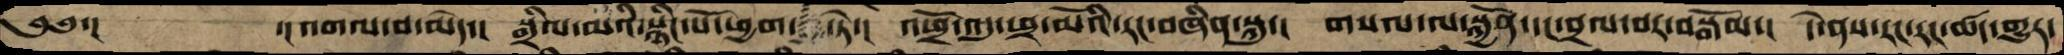༄༅་།  ་།འགལ་བ་མེད་། སྒྲིལ་མའི་སྙིང་པོ་ཕྱག་རྒྱ་ཏེ་། འཕྲོ་འདུ་ཕྲ་མོའི་རང་བཞིན་སྐུ་། གསལ་ལ་སྐྱོན་དང་བྲལ་བར་བསྒོམ་། དེ་ནས་རང་རང་ཚད་གྱུར་
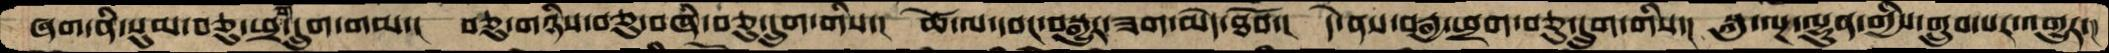ཞག་ནི་སུམ་བཅུ་ཕྲག་དྲུག་གམ་། བཅུ་གཉིས་བཅུ་བཞི་བཅུ་དྲུག་གིས་། ཚེ་ལ་དབང་བསྒྱུར་ཟག་མེད་ཐོབ་། དེ་ནས་བརྒྱ་ཕྲག་བཅུ་དྲུག་གིས་། སྐུ་ལྔ་ལྷུན་གྱིས་གྲུབ་པར་འགྱུར་།
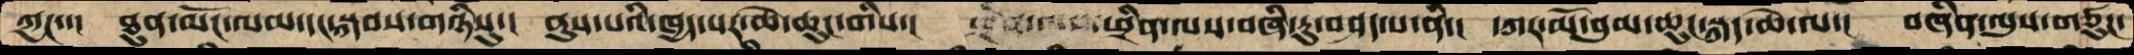ཀྱང་་། ཐུན་མོང་ལམ་དང་སྐབས་གཉིསུ་། ནུས་པའི་ཁྱད་པར་ཆེ་ཆུང་གིས་། ཕྲིན་ལས་བཞི་རུ་བཤད་པ་ནི་། དཀར་མོ་བུམ་ཆུང་སྐད་ཆེ་ལ་། བཞིན་ལུས་གཙུང་
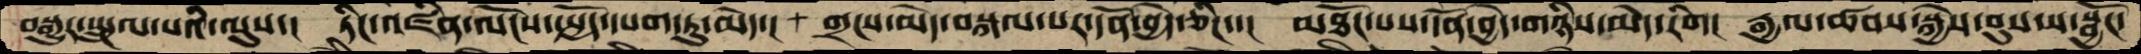བསྒྱུར་སྤྲུལ་པའི་ལུས་། ཏིང་འཛིན་ལོངས་སྤྱོད་དཔག་ཏུ་མེད་། གྲངས་མེད་བསྐལ་པར་དོན་བྱེད་ཅིང་་། མཐོང་པས་དོན་བྱེད་གཉིས་མེད་རིག། རྒྱལ་ཚབས་སྐྱེས་བུས་ས་སྦྱོང་
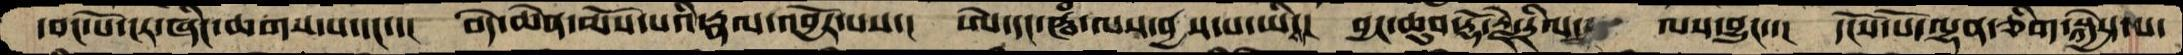དབང་པོ་དར་ཞིང་ཆགས་པ་དང་་། བདེ་ཆེན་མོས་པའི་རྣལ་འབྱོར་པས་། ཨེ་དང་ཝཾ་ལས་ནྱས་པ་ཡིས་། བྱང་ཆུབ་རྡོ་རྗེ་དྲིལ་ལས་བྱུང་་། དངོས་པོ་ལྷན་ཅིག་སྐྱེས་པ་
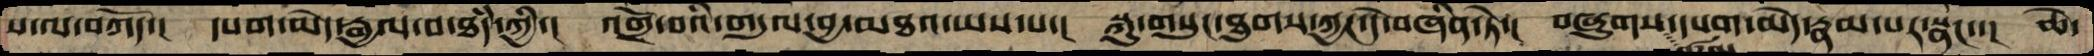ས་ལ་བཀོད་། དཔག་མེད་རྒྱལ་བ་ཐཾད་ཀྱི་། འགྲོ་བའི་གདུལ་བྱ་མཐའ་ཡས་པ་། སྐུ་གསུང་ཐུགས་ཀྱང་དེ་བཞིན་ཏེ་། བཞུགས་ཚུལ་དཔག་མེད་རྣམ་པར་སྣང་་། ཆེ་
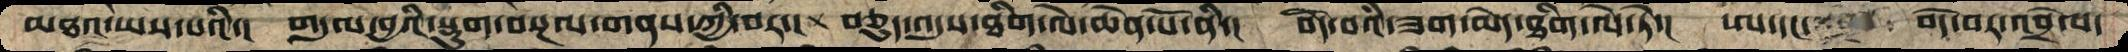མཐའ་ཡས་པའི་། གདུལ་བྱའི་སྡུག་བསྔལ་གནས་ཀྱི་བར་། བཅུད་འདུས་ཐིག་ལེ་ཆེན་པོ་ནི་། བདེ་བའི་ཟག་མེད་ཐིག་ལེ་ཏེ་། ཨ་དང་   བདེ་བར་འབྲེལ་
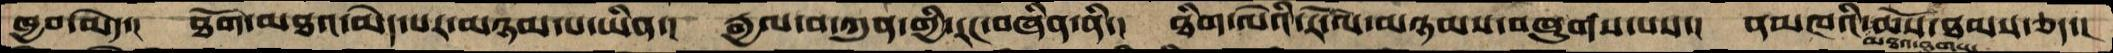ཁྱབ་མེད་། ཐོག་མཐའ་མེད་པར་མཉམ་པ་ཡིན་། རྒྱལ་བ་ཀུན་གྱི་རང་བཞིན་ནི་། ཐིག་ལེའི་རོ་ལ་མཉམས་བཞུགས་པས་། ནམཁའི་མཐའ་ཐུགས་ཆོས་ཐམས་ཅད་།
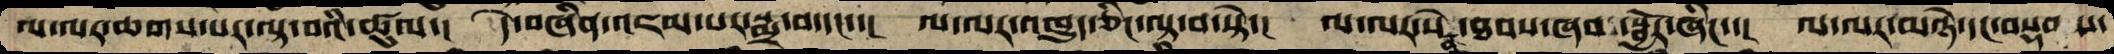ལ་ལར་ཆགས་པར་ལྟ་བའི་ཚུལ་། དེ་བཞིན་འཇམ་པར་སྨྲ་བ་དང་་། ལ་ལར་འཁྱུད་ཅིང་ལྟ་བ་སྟེ་། ལ་ལར་སེན་ཐབས་ཞབ་སྦྱོར་ཞིང་་། ལ་ལར་མཉེ་དང་བསྡམས་
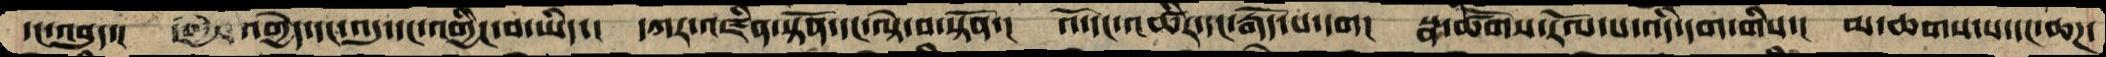དང་འབུད་། འགྱེད་དང་འདུ་དང་འགྱིང་བ་ཡིད་། དཀར་འཛིན་སྟོན་དང་ལྟེ་བ་སྟོན་། འོ་དང་འཚིར་དང་རྒོད་པ་དག། སྣ་ཚོགས་རོལ་པ་འདི་དག་གིས་། མ་ཆགས་པ་དང་ཆཌ་
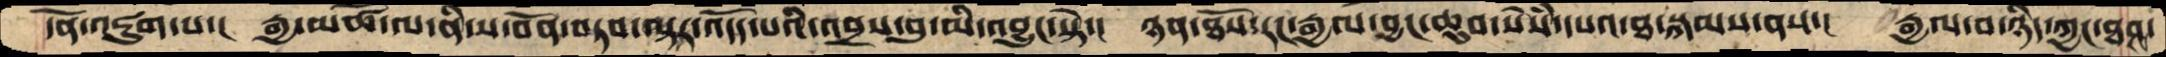དོན་འཇུག་པ་། རྒྱ་མཚོ་ལ་ནི་ས་བོན་བཏབ་ལྟར་འདོད་པའི་འབྲས་བུ་མི་འབྱུང་སྟེ་། ཉན་ཐོས་རང་རྒྱལ་བྱང་ཆུབ་སེཾས་དཔའ་ཐ་སྐམས་ནས་། རྒྱལ་བ་ཉིད་ཀྱང་ཐབས་
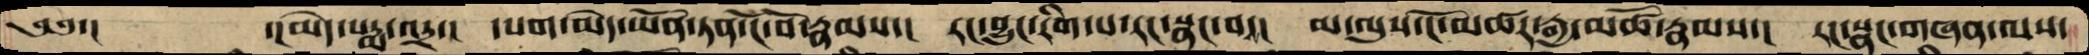༄༅་།   ་།མེད་པདྨ་འདྲ་། དཔག་མེད་ཡོན་ཏན་ངོ་བོ་རྣམས་། རང་བྱུང་རིག་པ་རང་སྣང་བས་། མ་ལུས་ངོ་མཚར་རྒྱ་མཚོ་རྣམས་། རང་སྣང་གཞན་ལས་
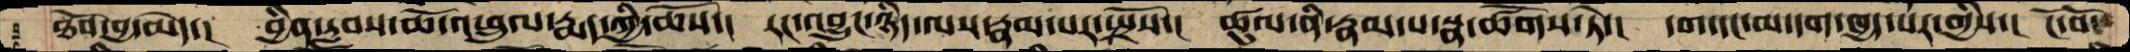ཐོབ་བྱ་མེད་། བྱིན་རླབས་ཆོ་འཕྲུལ་རྨད་ཀྱི་ཆོས་། རང་འབྱུང་ཉིད་ལས་རྣམ་པར་སྤྲོས་། ཚུལ་ནི་རྣམ་པ་སྣ་ཚོགས་ཏེ་། དག་དང་མ་དག་ཁྱད་པར་གྱིས་། ངོ་བོ་
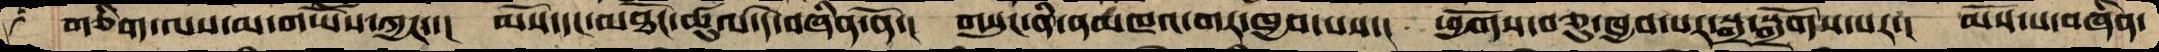གཅིག་ལས་མ་གཡོས་ཀྱང་་། མོས་དང་མཐོང་ཚུལ་དེ་བཞིན་ནོ་། གསུང་ནི་ནམཁའ་གར་ཁྱབ་པས་། ཕྱོགས་བཅུ་ཁྱབ་པར་སྒྲ་སྒྲོགས་པར་། མོས་པ་བཞིན་
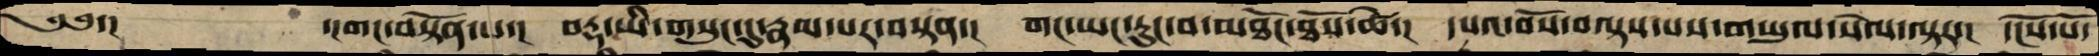༄༅་།       ་།གང་བསྟོན་པ་།  བརྡ་ཡི་གསུང་དུ་རྣམ་པར་བསྟན་།  གང་ཡང་རུང་བ་མཐོང་ཐོས་ཚེ་།  དཔའ་བོས་བལྟས་པས་གཡུལ་སེལ་ལྟར་།  དངོས་པོ་
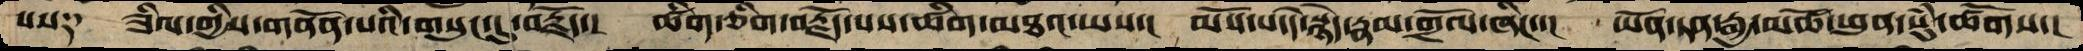པས༑     ཟིལ་གྱིས་གནོན་པའི་གསུང་དུ་བརྗོད་།   ཚིག་ཅིག་བརྗོད་པས་ཚིག་མཐའ་ཡས་།  མོས་པ་དེ་སྙེད་རྣམ་གྲོལ་ཞིང་་།  ཡོན་ཏན་རྒྱ་མཚོ་ཕུན་སུཾ་ཚོགས་།
